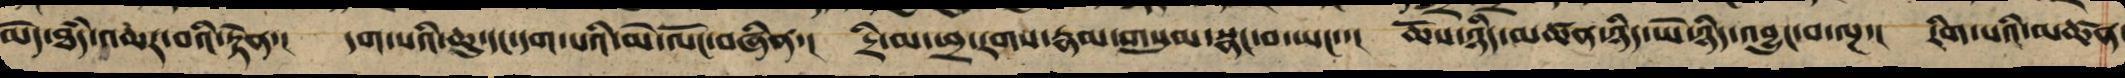མེད་ཐཾད་འཆར་བའི་རྟེན་། དག་པའི་ཆུ་དང་དག་པའི་མེ་ལོང་བཞིན་། དྲི་མ་ཕྲ་རགས་རྣམ་གསུམ་སྣང་བ་ཡང་་། ཆོས་ཉིད་མཚན་ཉིད་ཡེ་ཉིད་འབྱུང་བ་ལྔ་། རིག་པའི་མཚན་
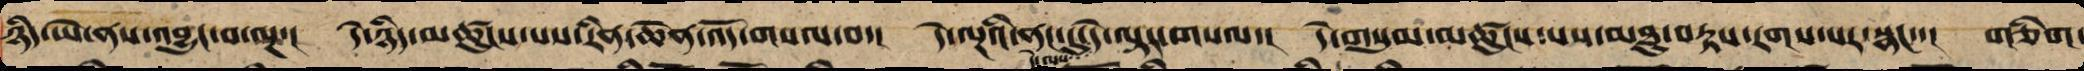ཉིད་ཡེ་ནས་འབྱུང་བ་ལྔ་།   དེ་ཉིད་མཚུངས་པས་རིན་ཆེན་འོད་གསལ་བ་།   དེ་ལྔའི་ནང་དུ་དེ་ལས་དེ་ལྟར་གསལ་།   དེ་གསུམ་མཚུངས་པས་མཐུ་བརྟས་རགས་པར་སྣང་།   གཅིག་
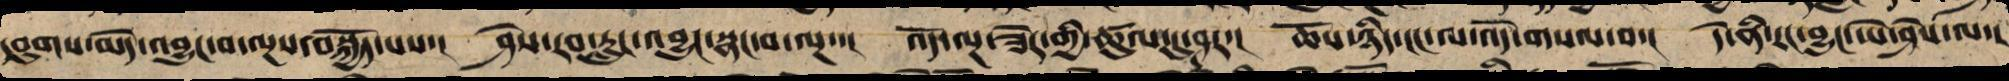དབུགས་མེད་འབྱུང་བ་ལྔས་བསྐྱོད་པས་། ཤེས་རབ་རླུང་འབྱུང་སྣང་བ་ལྔ་་། འོད་ལྔ་ཟེར་གྱི་ཚུལ་དུ་ཤར་། ཆོས་ཉིད་ངང་ལ་འོད་གསལ་བ་། དེ་ནི་རང་བྱུང་ཡེ་ཤེས་ལ་།
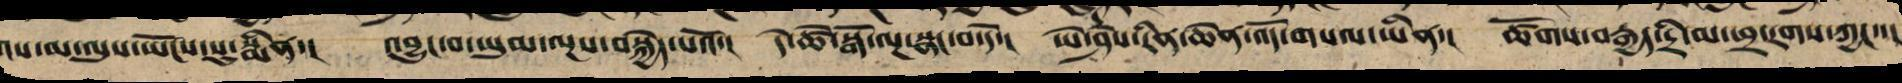ས་མ་ལུས་ཡོངས་སུ་སྨིན་། འབྱུང་བ་ཡུམ་ལྔས་བསྐྱེད་པའོ་། དེ་ཚེ་སྒོ་ལྔ་སྣང་བ་དེ་། ཡེ་ཤེས་རིན་ཆེན་འོད་གསལ་ཡིན་། ཚོགས་བརྒྱད་དྲི་མ་ཕྲ་རགས་ཀྱང་་།
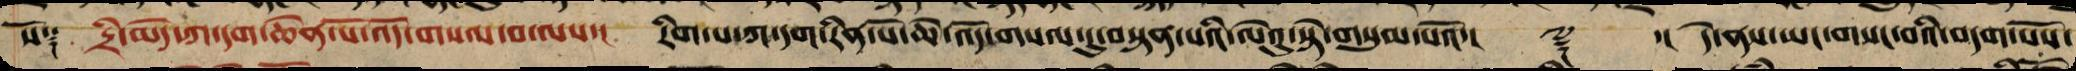སོ༑ དྲི་མེད་ཀ་དག་ཆེན་པོ་འོད་གསལ་བ་ལས་། རིག་པ་ཀ་དག་རིན་པོ་ཆེ་འོད་གསལ་དུ་བསྟན་པའི་ལེའུ་སྟེ་གསུམ་པའོ་།། ༈ ་། དེ་ནས་ཡང་གསང་བའི་བདག་པོས་
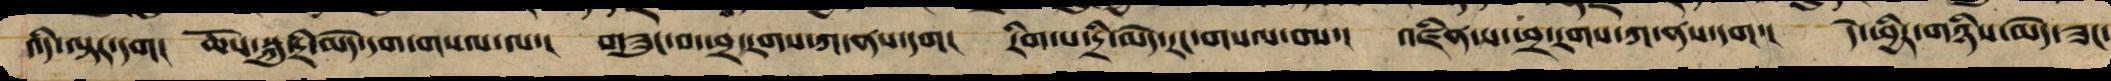འདི་ལྟར་དག། ཆོས་སྐུ་དྲི་མེད་དག་གསལ་ལ་། གཟུང་བ་ཕྲ་རགས་ཀ་ནས་དག། རིག་པ་དྲི་མེད་རང་གསལ་བས་། འཛིན་པ་ཕྲ་རགས་ཀ་ནས་དག་། དེ་ཕྱིར་གཉིས་མེད་ཟང་
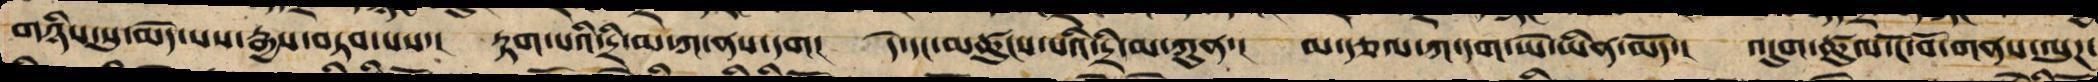གཉིས་སུ་མེད་པས་རྒྱས་བཏབ་པས་། རྟག་པའི་དྲི་མ་ཀ་ནས་དག། དེ་དང་མཚུངས་པའི་དྲི་མ་ཀུན་། མ་རྩལ་ཀ་དག་ཡེ་ཡིན་མོད་། འདུག་ཚུལ་ངོ་བོ་གནས་ལུཌ་
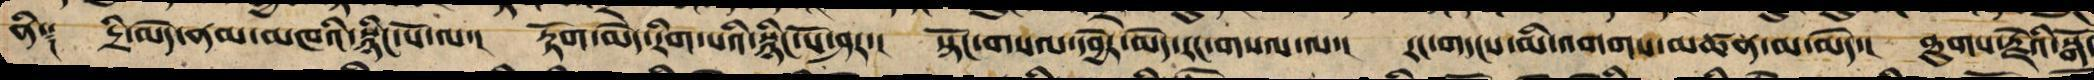ནི༑ དྲི་མེད་ནམ་མཁའི་སྙིང་པོ་ལ་། རྟོག་མེད་རིག་པའི་སྙིང་པོ་ཤར་། སྟོང་གསལ་དབྱེར་མེད་རང་གསལ་ལ་། རང་གདངས་མི་འགགས་མཚན་མ་མེད་། ཐུགས་རྗེའི་སྒོ་
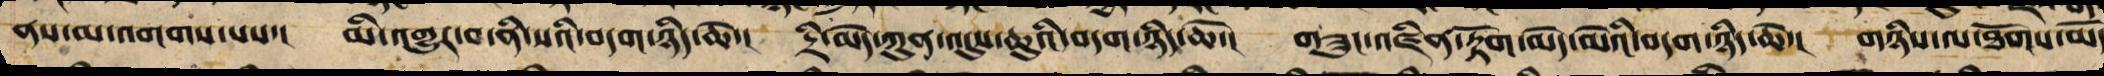ནས་མ་འགགས་པས་། མི་འགྱུར་བ་ནི་སའི་བདག་ཉིད་ཆེ་། དྲི་མེད་ཀུན་འདུས་ཆུའི་བདག་ཉིད་ཆེ་། གཟུང་འཛིན་རྟོག་མེད་མེའི་བདག་ཉིད་ཆེ་། གཉིས་ལ་ཐོགས་མེད
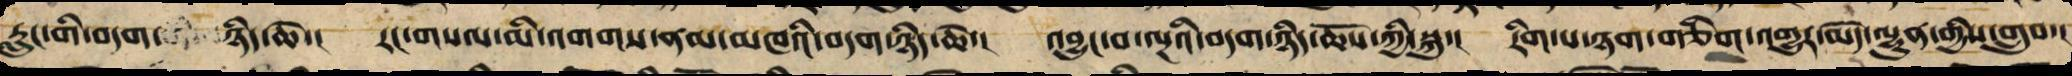རླུང་གི་བདག་ ཉིད་ཆེ་། རང་གསལ་མི་འགགས་ནམ་མཁའི་བདག་ཉིད་ཆེ་། འབྱུང་བ་ལྔའི་བདག་ཉིད་ཆོས་ཀྱི་སྐུ་། རིག་པ་ཉག་གཅིག་འགྱུར་མེད་ལྷུན་གྱིས་གྲུབ་།
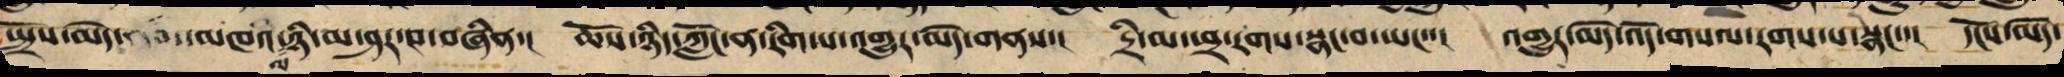སྤྲོས་མེད་མཁའ་ལ་ཉི་མ་ཤར་བ་བཞིན་། ཆོས་ཉིད་ཀློང་ན་རིག་པ་འགྱུར་མེད་གནས་། དྲི་མ་ཕྲ་རགས་སྣང་བ་ཡང་། འགྱུར་མེད་འོད་གསལ་རགས་པར་སྣང་། དངོས་མེད་
